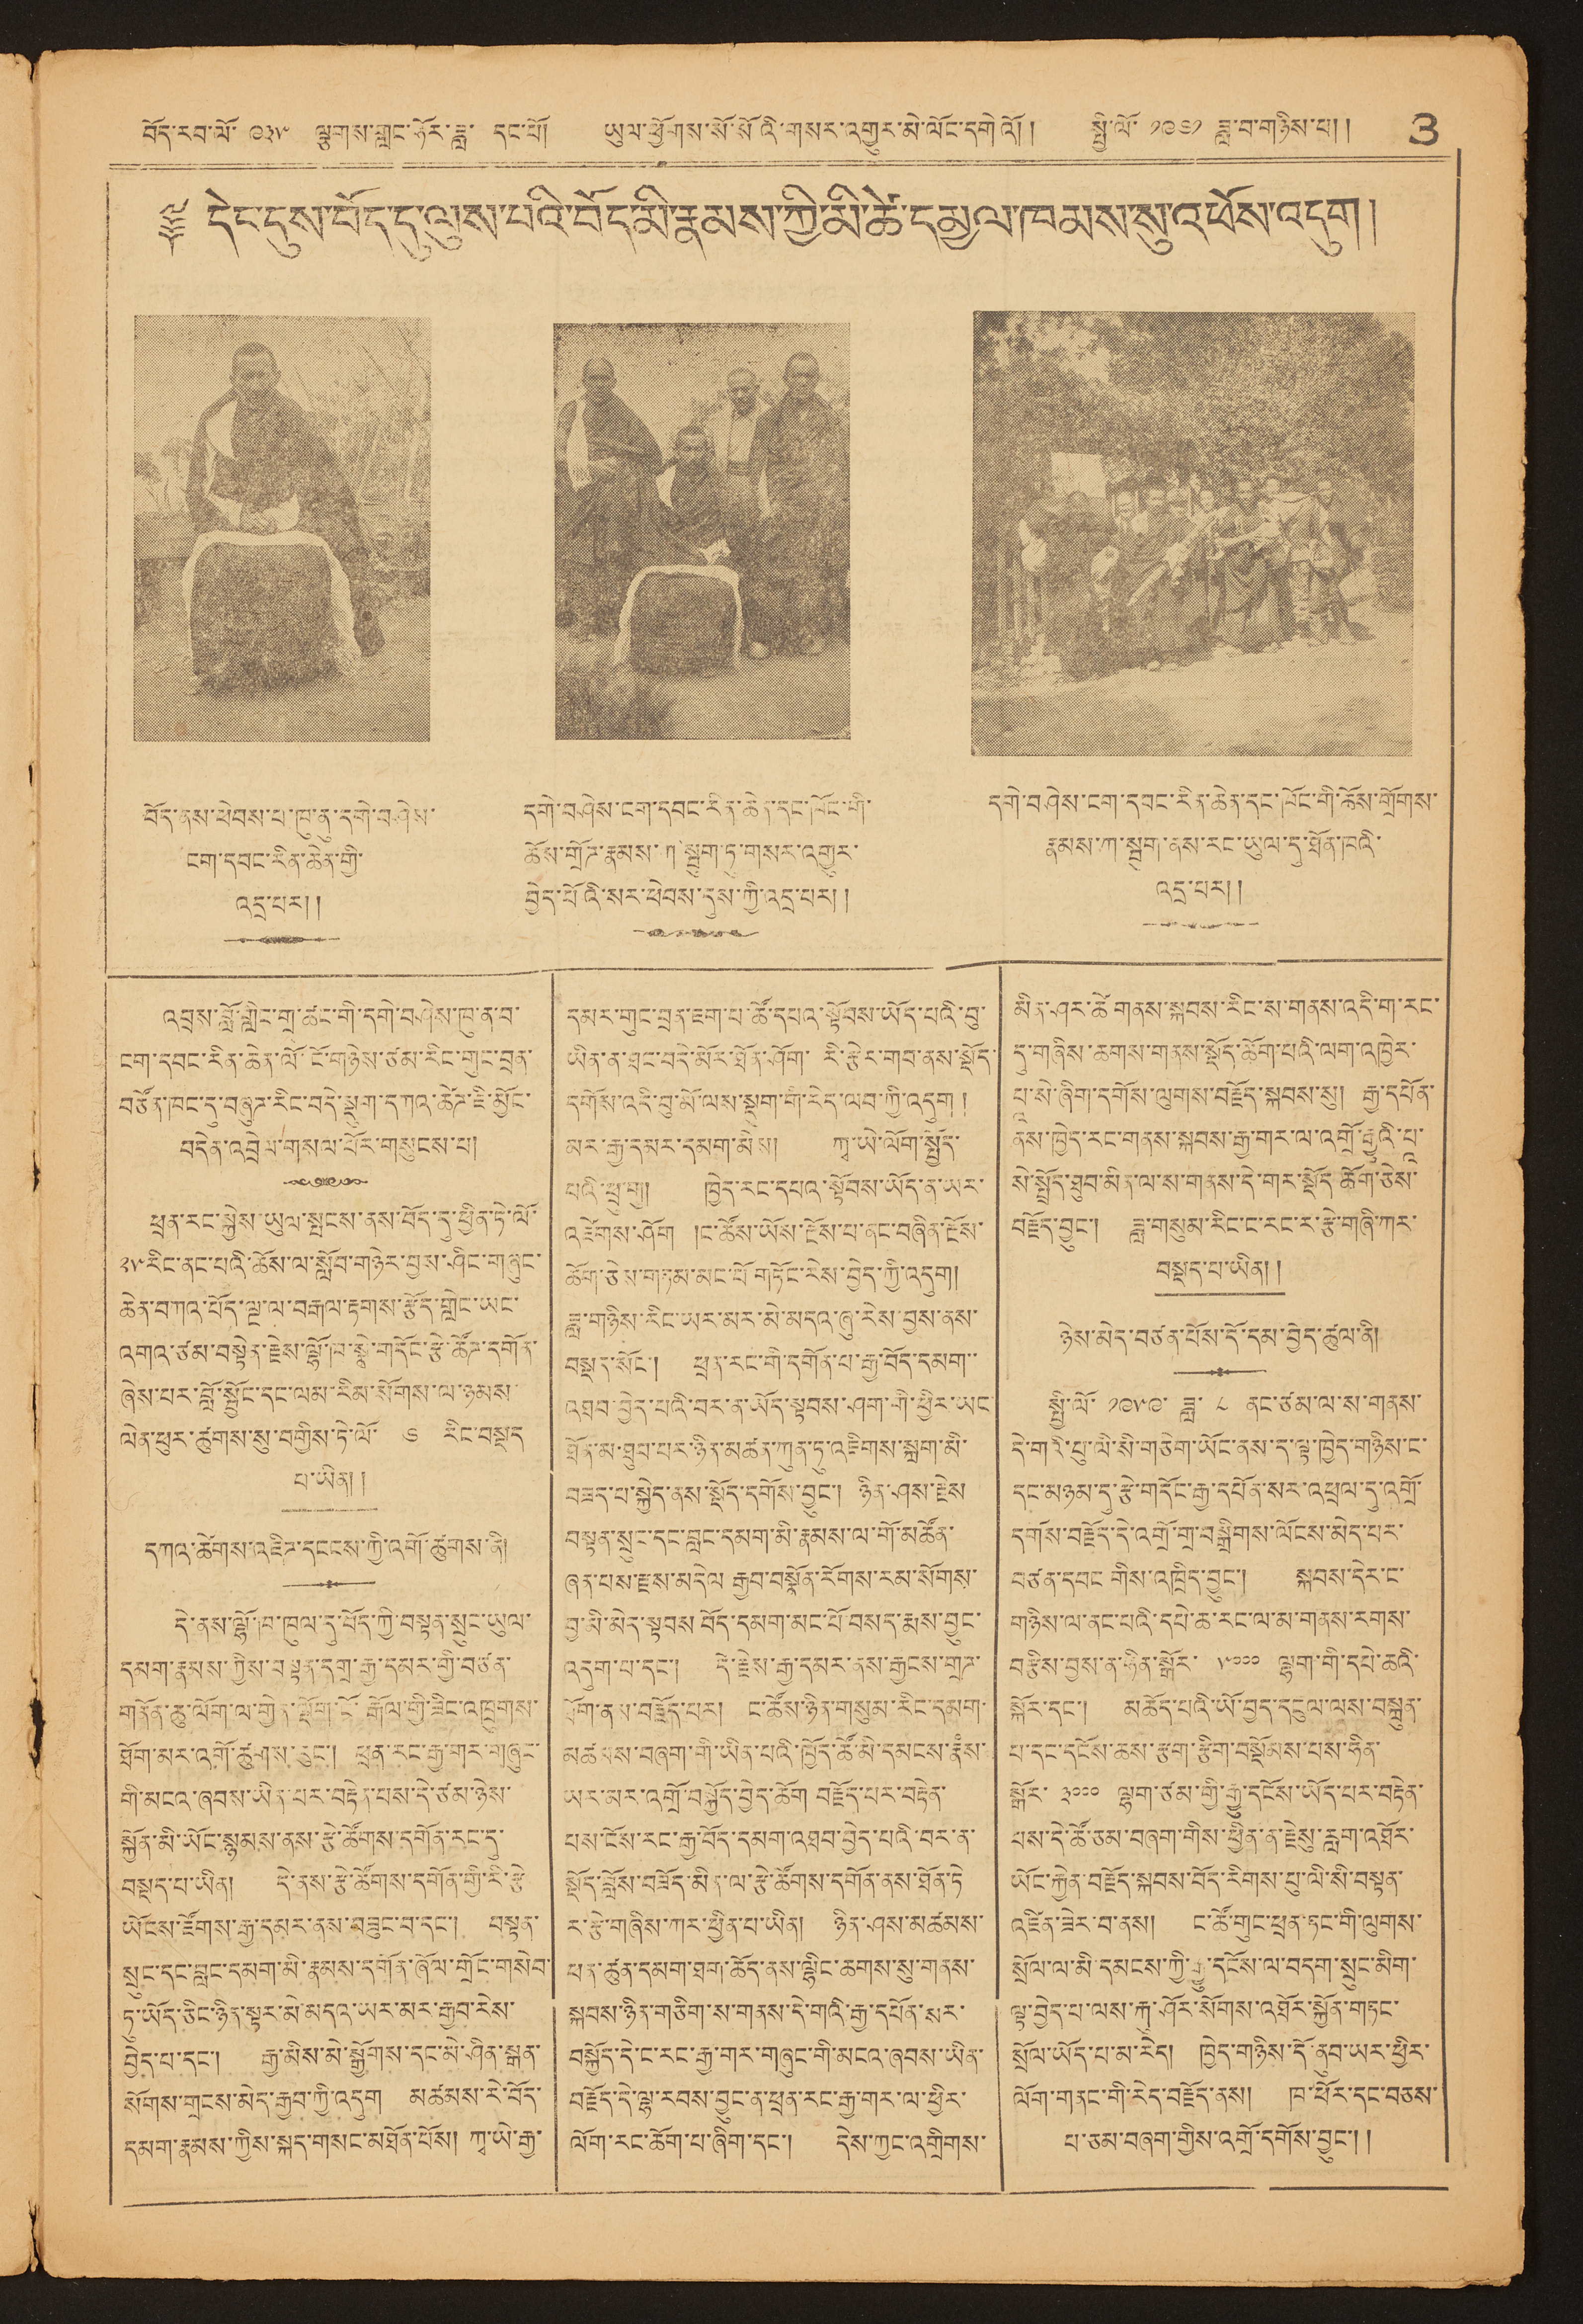བོད་རབ་ལོ་ ༩༣༥ ལྕགས་གླང་ཧོར་ཟླ་ དང་པོ། ཡུལ་ཕྱོགས་སོ་སོའི་གསར་འགྱུར་མེ་ལོང་དགེའོ།། སྤྱི་ལོ་ ༡༩༦༡ ཟླ་བ་གཉིས་པ།། 3
༈ དེང་དུས་བོད་དུ་ལུས་པའི་བོད་མི་རྣམས་ཀྱི་མི་ཚེ་དམྱལ་ཁམས་སུ་འཕོས་འདུག།
བོད་ནས་ཕེབས་པ་ཁུ་ན་དགེ་བཤེས་
ངག་དབང་རིན་ཆེན་གྱི་
འདྲ་པར།།
དགེ་བཤེས་ངག་དབང་རིན་ཆེན་དང་ཁོང་གི་
ཆོས་གྲོཊ་རྣམས་ཀ་སྦུག་ཏུ་གསར་འགྱུར་
བྱེད་པོའི་སར་ཕེབས་དུས་ཀྱི་འདྲ་པར།།
དགེ་བཤེས་ངག་དབང་རིན་ཆེན་དང་ཁོང་གི་ཆོས་གྲོགས་
རྣམས་ཀ་སྦུག་ནས་རང་ཡུལ་དུ་ཐོན་ཁའི་
འདྲ་པར།།
འབྲས་བློ་གླིང་ཚང་གི་དགེ་བཤེས་ཁུ་ན་བ་
ངག་དབང་རིན་ཆེན་ངོ་ལོ་གཉིས་ཙམ་རིང་གུང་བྲན་
བཙོན་ཁང་དུ་བཞུཊ་རིང་བདེ་སྡུག་དཀའ་ཚེཊ་ཇི་མྱོང་
བདེན་འབྲེལ་གསལ་པོར་གསུངས་པ།
ཕྲན་རང་སྐྱེས་ཡུལ་སྤངས་ནས་བོད་དུ་ཕྱིན་ཏེ་ལོ་
༢༥ རིང་ནང་པའི་ཆོས་ལ་སློབ་གཉེར་བྱས་ཤིང་གཞུང་
ཆེན་བཀའ་པོད་ལྔ་ལ་བརྒལ་རྟགས་རྩོད་གླེང་ཡང་
འགའ་ཙམ་བསྟེན་རྗེས་ལྷོ་ཁ་སྣེ་དགོང་རྩེ་ཚོགས་དགོན་
ཞེས་པར་བློ་སྦྱོང་དང་ལམ་རིམ་སོགས་ལ་ཉམས
ལེན་ཕུར་ཚུགས་སུ་བགྱིས་ཏེ་ལོ་ ༦ རིང་བསྡད
པ་ཡིན།།
དཀའ་ཚེགས་འཇིཊ་དངངས་ཀྱི་འགོ་ཚུགས་ནི།
དེ་ནས་ལྷོ་ཁ་ཁུལ་དུ་བོད་ཀྱི་བསྟན་སྲུང་ཡུལ་
དམག་རྣམས་ཀྱིས་བསྟན་དགྲ་རྒྱ་དམར་གྱི་བཙན་
གནོན་ཆུ་ལོག་ལ་གྱེན་ལྡོག་ངོ་རྒོལ་གྱི་ཟིང་འཁྲུགས་
ཐོག་མར་འགོ་ཚུགས་རུང་། ཕྲན་རང་རྒྱ་གར་གཞུང་
གི་མངའ་ཞབས་ཡིན་པར་བརྟེན་པས་དེ་ཙམ་ཉེས་
སྐྱོན་མི་ཡོང་སྙམས་ནས་རྩེ་ཚོགས་དགོན་རང་དུ་
བསྡད་པ་ཡིན། དེ་ནས་རྩེ་ཚོགས་དགོན་གྱི་རི་རྩེ་
ཡོངས་རྫོགས་རྒྱ་དམར་ནས་བཟུང་པ་དང་། བསྟན་
སྲུང་དང་བླང་དམག་མི་རྣམས་དགོན་ཞོལ་གྲོངས་གསེབ་
ཏུ་ཡོད་ཅིང་ཉིན་སྟར་མེ་མདའ་ཡར་མར་རྒྱབ་རེས་
བྱེད་པ་དང་། རྒྱ་མིས་མེ་སྒྱོགས་དང་མེ་ཤིན་སྒན་
སོགས་གྲངས་མེད་རྒྱབ་ཀྱི་འདུག མཚམས་རེ་བོད་
དམག་རྣམས་ཀྱིས་སྐད་གསང་མཐོན་པོས། ཀྭ་ཡེ་རྒྱ་
དམར་གུང་བྲན་ཇག་པ་ཚོ་དཔའ་སྟོབས་ཡོད་པའི་བུ་
ཡིན་ན་ཐང་བདེ་མོར་ཐོན་ཤོག་ རི་རྩེར་གབ་ནས་སྡོད་
དགོན་འདི་བུ་མོ་ལས་སྡུག་གི་རེད་ལབ་ཀྱི་འདུག །
མར་རྒྱ་དམར་དམག་མེས། ཀྭ་ཡེ་ལོག་སྤྱོད་
པའི་ཕྲུ་གྲུ། ཁྱེད་རང་དཔའ་སྟོབས་ཡོད་ན་ཡར་
འཛེགས་ཤོག །ང་ཚོས་ཡོས་རྔོས་པ་ནང་བཞིན་རྔོས་
ཆོག་ཅེས་གཏམ་མང་པོ་གཏོང་རེས་བྱེད་ཀྱི་འདུག།
ཟླ་གཉིས་རིང་ཡར་མར་མེ་མདའ་ཞུ་རེས་བྱས་ནས་
བསྡད་སོང་། ཕྲན་རང་གི་དགོན་པ་རྒྱ་བོད་དམག་་
འཐབ་བྱེད་པའི་བར་ན་ཡོད་སྟབས་ཤག་གི་ཕྱིར་ཡང
ཐོན་མ་ཐུབ་པར་ཉིན་མཚན་ཀུན་ཏུ་འཇིགས་སྐྲག་མི་
བཟད་པ་སྐྱེད་ནས་སྡོད་དགོས་བྱུང་། ཉིན་ཤས་རྗེས
བསྟན་སྲུང་དང་བླང་དམག་མི་རྣམས་ལ་གོ་མཚོན་
ཞན་པས་རྗས་མདེལ རྒྱབ་བསྣོན་རོགས་རམ་སོགས་
བྱ་མི་མེད་སྟབས བོད་དམག་མང་པོ་བསད་རྨས་བྱུང་
འདུག་པ་དང་། དེ་རྗེས་རྒྱ་དམར་ནས་རྒྱངས་གྲཊ་
ཐོག་ནས་བརྗོད་པར། ང་ཚོས་ཉིན་གསུམ་རིང་དམག་
མཚམས་བཞག་གི་ཡིན་པའི་ཁྱོད་ཚོ་མི་དམངས་རྣཾས་
ཡར་མར་འགྲོ་བསྐྱོད་བྱེད་ཆོག བརྗོད་པར་བརྟེན་
པས་ངོས་རང་རྒྱ་བོད་དམག་འཐབ་བྱེད་པའི་བར་ན་
སྡོད་བློས་བཟོད་མིན་ལ་རྩེ་ཆོགས་དགོན་ནས་ཐོན་ཏེ་
ར་རྩེ་གཞིས་ཀར་ཕྱིན་པ་ཡིན། ཉིན་ཤས་མཚམས་
ཕན་ཚུན་དམག་ཐག་ཆོད་ནས་ལྷིང་ཆགས་སུ་གནས་
སྐབས་ཉིད་གཅིག་ས་གནས་དེ་གའི་རྒྱ་དཔོན་སར་
བསྐྱོད་དེ་ང་རང་རྒྱ་གར་གཞུང་གི་མངའ་ཞབས་ཡིན་
བརྗོད་དེ་ལྷ་རབས་བྱུང་ན་ཕྲན་རང་རྒྱ་གར་ལ་ཕྱིར་
ལོག་རང་ཆོག་པ་ཞིག་དང་། དེས་ཀྱང་འགྲིགས་
མིན་ཤར་ཚེ གནས་སྐབས་རིང་ས་གནས་འདི་ག་རང་
དུ་གཞིས་ཆགས་གནས་སྡོད་ཆོག་པའི་ལག་འཁྱེར་
པཱ་སེ་ཞིག་དགོས་ལུགས་བརྗོད་སྐབས་སུ། རྒྱ་དཔོན་
ནས་ཁྱེད་རང་གནས་སྐབས་རྒྱ་གར་ལ་འགྲོ་རྒྱུའི་པཱ་
སེ་སྤྲོད་ཐུབ་མིན་ལ་ས་གནས་དེ་གར་སྡོད་ཆོག་ཅེས་
བརྗོད་བྱུང་། ཟླ་གསུམ་རིང་ང་རང་ར་རྩེ་གཞི་ཀར་
བསྡད་པ་ཡིན།།
ཉེས་མེད་བཙན་པོས་དོ་དམ་བྱེད་ཚུལ་ནི།
སྤྱི་ལོ་ ༡༩༥༩ ཟླ་ ༨ ནང་ཙམ་ལ་ས་གནས་
དེ་གའི་པུ་ལི་སི་གཅིག་ཡོང་ནས་ད་ལྟ་ཁྱེད་གཉིས་ང་
དང་མཉམ་དུ་རྩེ་གདོང་རྒྱ་དཔོན་སར་འཕྲལ་དུ་འགྲོ་
དགོས་བརྗོད་དེ་འགྲོ་གྲ་བསྒྲིགས་ལོངས་མེད་པར་
བཙན་དབང གིས་འཁྲིད་བྱུང་། སྐབས་དེར་ང་
གཉིས་ལ་ནང་པའི་དཔེ་ཆ་རང་ལ་མ་གནས་རགས་
བརྩིས་བྱས་ན་ཧིན་སྒོར་ ༥༠༠༠ ལྷག་གི་དཔེ་ཆའི་
སྐོར་དང་། མཆོད་པའི་ཡོ་བྱད་དངུལ་ལས་བསྐྲུན་
པ་དང་དངོས་ཆས་རྩག་རྩིག་བསྡོམས་པས་ཧིན་
སྒོར་ ༣༠༠༠ ལྷག་ཙམ་གྱི་རྒྱུ་དངོས་ཡོད་པར་བརྟེན་
པས་དེ་ཚོ་ཅམ་བཞག་གིས་ཕྱིན་ན་རྗེསུ་རླག་འཐོར་
ཡོང་རྐྱེན་བརྗོད་སྐབས་བོད་རིགས་པུ་ལི་སི་བསྟན་
འཛིན་ཟེར་བ་ནས། ང་ཚོ་གུང་ཕྲན་ཏང་གི་ལུགས་
སྲོལ་ལ་མི་དམངས་ཀྱི་རྒྱུ་དངོས་ལ་བདག་སྲུང་མིག་
ལྟ་བྱེད་པ་ལས་རྐུ་ཤོར་སོགས་འཐོར་སྐྱོན་བཏང་
སྲོལ་ཡོད་པ་མ་རེད། ཁྱེད་གཉིས་དོ་ནུབ་ཡར་ཕྱིར་
ལོག་གནང་གི་རེད་བརྗོད་ནས། ཁ་ཕོར་དང་བཅས་
པ་ཅམ་བཞག་གྱིས་འགྲོ་དགོས་བྱུང་།།
